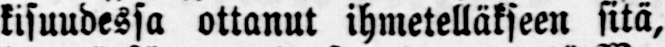kisuudessa ottanut ihmetelläkseen sitä,
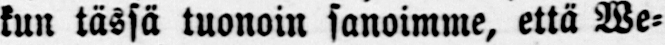kun tässä tuonoin sanoimme, että We-
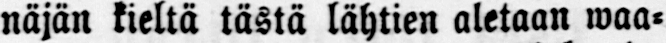näjän kieltä tästä lähtien aletaan waa-
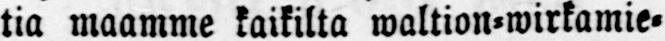tia maamme kaikilta waltion-wirkamie-
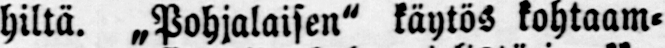hiltä. „Pohjalaisen" käytös kohtaam-
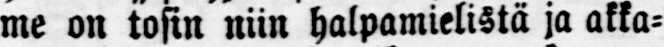me on tosin niin halpamielistä ja akka-
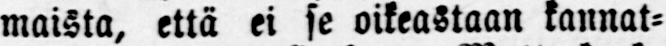maista, että ei se oikeastaan kannat-
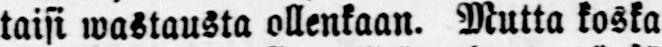taisi wastausta ollenkaan. Mutta koska
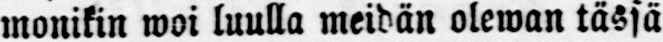monikin woi luulla meidän olewan tässä
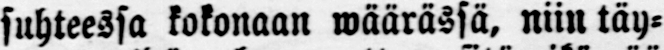suhteessa kokonaan wäärässä, niin täy-
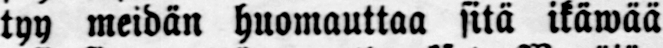tyy meidän huomauttaa sitä itäwää
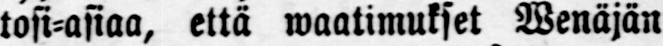tosi-asiaa, että waatimukset Wenäjän
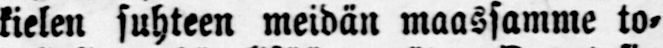kielen suhteen meidän maassamme to-
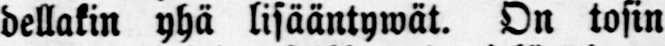dellakin yhä lisääntywät. On tosin
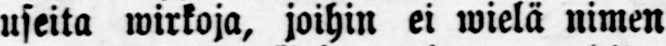useita wirkoja, joihin ei wielä nimen
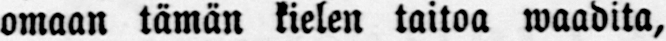omaan tämän kielen taitoa waadita,
